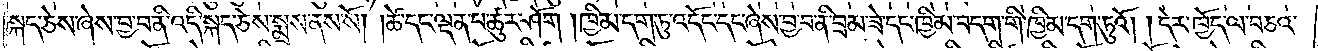སྐད་ཅེས་ཞེས་བྱ་བ་ནི་འདི་སྐད་ཅེས་སྨྲས་ནས་སོ། །ཚེ་དང་ལྡན་པ་ཚུར་ཤོག །ཁྱིམ་དག་ཏུ་འདོང་དང་ཞེས་བྱ་བ་ནི་བྲམ་ཟེ་དང་ཁྱིམ་བདག་གི་ཁྱིམ་དག་ཏུའོ། །དེར་ཁྱོད་ལ་བཅའ་
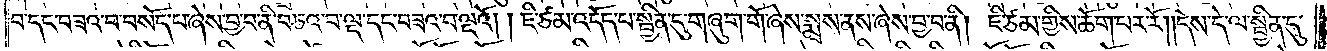བ་དང་བཟའ་བ་བསོད་པ་ཞེས་བྱ་བ་ནི་བཅའ་བ་ལྡ་དང་བཟའ་བ་ལྡའོ། །ཇི་ཙམ་འདོད་པ་སྦྱིན་དུ་གཞུག་གོ་ཞེས་སྨྲས་ནས་ཞེས་བྱ་བ་ནི། ཇི་ཙམ་གྱིས་ཆོག་པར་རོ། །དེས་དེ་ལ་སྦྱིན་དུ་
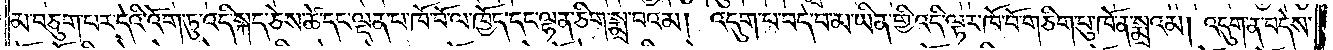མ་བཅུག་པར་དེའི་འོག་ཏུ་འདི་སྐད་ཅེས་ཚེ་དང་ལྡན་པ་ཁོ་བོ་ལ་ཁྱོད་དང་ལྷན་ཅིག་སྨྲ་བའམ། འདུག་པ་བདེ་བ་མ་ཡིན་གྱི་འདི་ལྟར་ཁོ་བོ་གཅིག་པུ་ཁོ་ན་སྨྲའམ། འདུག་ན་བདེས་
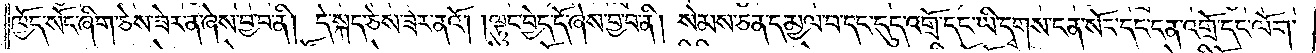ཁྱོད་སོང་ཞིག་ཅེས་ཟེར་ན་ཞེས་བྱ་བ་ནི། དེ་སྐད་ཅེས་ཟེར་ནའོ། །ལྟུང་བྱེད་དོ་ཞེས་བྱ་བ་ནི། སེམས་ཅན་དམྱལ་བ་དང་དུད་འགྲོ་དང་ཡི་དྭགས་ངན་སོང་དང་ངན་འགྲོ་དང་ལོག་
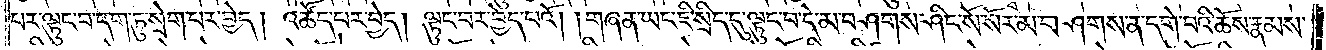པར་ལྟུང་བ་དག་ཏུ་སྲེག་པར་བྱེད། འཚོད་པར་བྱེད། ལྟུང་བར་བྱེད་པའོ། །གཞན་ཡང་ཇི་སྲིད་དུ་ལྟུང་བ་དེ་མ་བཤགས་ཤིང་སོ་སོར་མ་བཤགས་ན་དགེ་བའི་ཆོས་རྣམས་
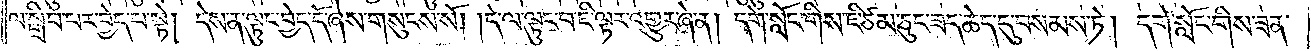ལ་སྒྲིབ་པར་བྱེད་པ་སྟེ། དེས་ན་ལྟུང་བྱེད་དོ་ཞེས་གསུངས་སོ། །དེ་ལ་ལྟུང་བ་ཇི་ལྟར་འགྱུར་ཞེ་ན། དགེ་སློང་གིས་ཇི་ཙམ་ཅུང་ཟད་ཆེད་དུ་བསམས་ཏེ། དགེ་སློང་གིས་ཟན་
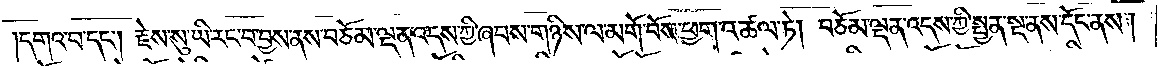དགའ་བ་དང༌། རྗེས་སུ་ཡི་རང་བ་བྱས་ནས་བཅོམ་ལྡན་འདས་ཀྱི་ཞབས་གཉིས་ལ་མགོ་བོས་ཕྱག་འཚལ་ཏེ། བཅོམ་ལྡན་འདས་ཀྱི་སྤྱན་སྔ་ནས་དོང་ནས།
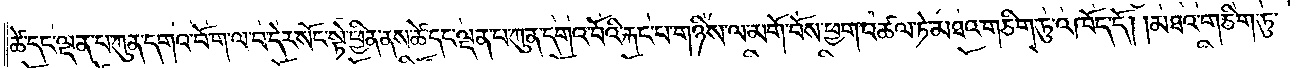ཚེ་དང་ལྡན་པ་ཀུན་དགའ་བོ་ག་ལ་བ་དེར་སོང་སྟེ་ཕྱིན་ནས་ཚེ་དང་ལྡན་པ་ཀུན་དགའ་བོའི་རྐང་པ་གཉིས་ལ་མགོ་བོས་ཕྱག་འཚལ་ཏེ་མཐའ་གཅིག་ཏུ་འཁོད་དོ། །མཐའ་གཅིག་ཏུ་
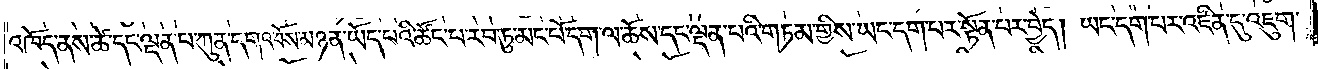འཁོད་ནས་ཚེ་དང་ལྡན་པ་ཀུན་དགའ་བོས་མཉན་ཡོད་པའི་ཚོང་པ་རབ་ཏུ་མང་པོ་དག་ལ་ཆོས་དང་ལྡན་པའི་གཏམ་གྱིས་ཡང་དག་པར་སྟོན་པར་བྱེད། ཡང་དག་པར་འཛིན་དུ་འཇུག་
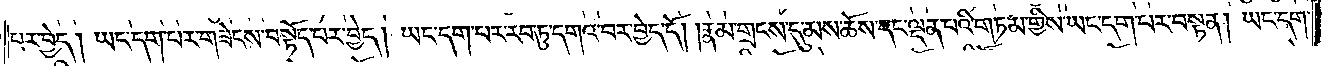པར་བྱེད། ཡང་དག་པར་གཟེངས་བསྟོད་པར་བྱེད། ཡང་དག་པར་རབ་ཏུ་དགའ་བར་བྱེད་དོ། །རྣམ་གྲངས་དུ་མས་ཆོས་དང་ལྡན་པའི་གཏམ་གྱིས་ཡང་དག་པར་བསྟན། ཡང་དག་
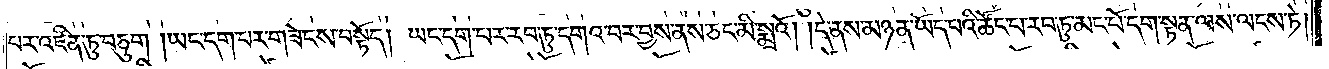པར་འཛིན་ཏུ་བཅུག །ཡང་དག་པར་གཟེངས་བསྟོད། ཡང་དག་པར་རབ་ཏུ་དགའ་བར་བྱས་ནས་ཅང་མི་སྨྲའོ། །དེ་ནས་མཉན་ཡོད་པའི་ཚོང་པ་རབ་ཏུ་མང་པོ་དག་སྟན་ལས་ལངས་ཏེ།
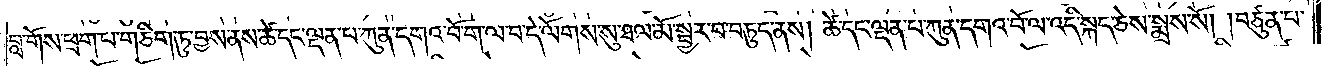བླ་གོས་ཕྲག་པ་གཅིག་ཏུ་བྱས་ནས་ཚེ་དང་ལྡན་པ་ཀུན་དགའ་བོ་ག་ལ་བ་དེ་ལོགས་སུ་ཐལ་མོ་སྦྱར་བ་བཏུད་ནས། ཚེ་དང་ལྡན་པ་ཀུན་དགའ་བོ་ལ་འདི་སྐད་ཅེས་སྨྲས་སོ། །བཙུན་པ་
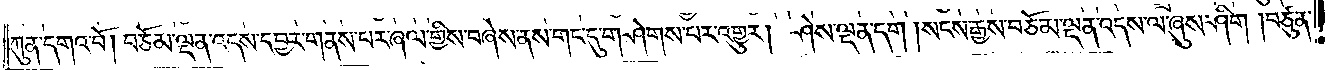ཀུན་དགའ་བོ། །བཅོམ་ལྡན་འདས་དབྱར་གནས་པར་ཞལ་གྱིས་བཞེས་ནས་གང་དུ་གཤེགས་པར་འགྱུར། ཤེས་ལྡན་དག །སངས་རྒྱས་བཅོམ་ལྡན་འདས་ལ་ཞུས་ཤིག །བཙུན་
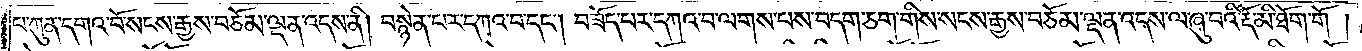པ་ཀུན་དགའ་བོ་སངས་རྒྱས་བཅོམ་ལྡན་འདས་ནི། བསྙེན་པར་དཀའ་བ་དང༌། བཟོད་པར་དཀའ་བ་ལགས་པས་བདག་ཅག་གིས་སངས་རྒྱས་བཅོམ་ལྡན་འདས་ལ་ཞུ་བའི་རྡོ་མི་ཐོག་གོ  །
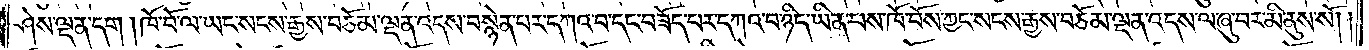ཤེས་ལྡན་དག །ཁོ་བོ་ལ་ཡང་སངས་རྒྱས་བཅོམ་ལྡན་འདས་བསྙེན་པར་དཀའ་བ་དང་བཟོད་པར་དཀའ་བ་ཉིད་ཡིན་པས་ཁོ་བོས་ཀྱང་སངས་རྒྱས་བཅོམ་ལྡན་འདས་ལ་ཞུ་བར་མི་ནུས་སོ། །
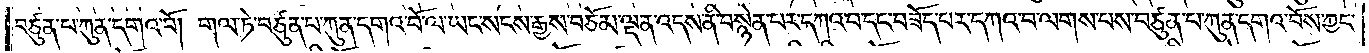བཙུན་པ་ཀུན་དགའ་བོ། གལ་ཏེ་བཙུན་པ་ཀུན་དགའ་བོ་ལ་ཡང་སངས་རྒྱས་བཅོམ་ལྡན་འདས་ནི་བསྙེན་པར་དཀའ་བ་དང་བཟོད་པར་དཀའ་བ་ལགས་པས་བཙུན་པ་ཀུན་དགའ་བོས་ཀྱང་
